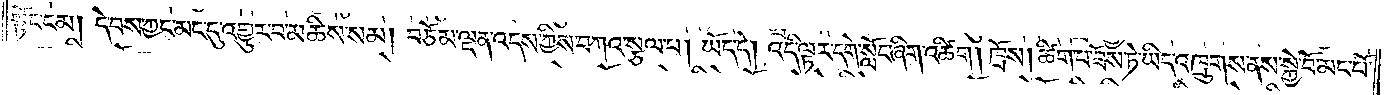སྟོང་ངམ། དེ་བས་ཀྱང་མང་དུ་འགྱུར་བ་མཆིས་སམ། བཅོམ་ལྡན་འདས་ཀྱིས་བཀའ་སྩལ་པ། ཡོད་དེ། འདི་ལྟར་དགེ་སློང་ཞིག་འཚིག །ཁྲོས། ཚིག་པ་ཟོས་ཏེ་ཡིད་འཁྲུགས་ནས་སྐྱེ་བོ་མང་པོ་
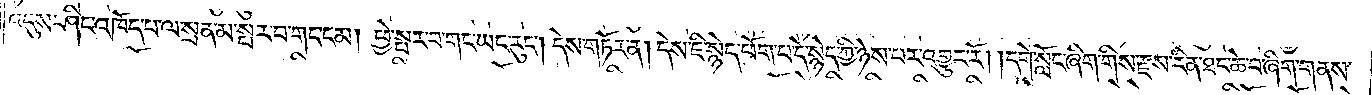འདུས་ཤིང་འཁོད་པ་ལ་སྲན་མ་སྤར་བ་གང་ངམ། ཕྱེ་སྤར་བ་གང་ཡང་རུང༌། དེས་གཏོར་ན། དེས་ཇི་སྙེད་ཕོག་པ་དེ་སྙེད་ཀྱི་ཉེས་པར་འགྱུར་རོ། །དགེ་སློང་ཞིག་གིས་རྫས་རིན་ཐང་ཆེ་བ་ཞིག་གནས་
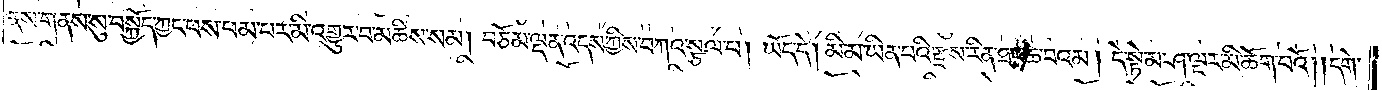ནས་གནས་སུ་བསྐྱོད་ཀྱང་ཕས་ཕམ་པར་མི་འགྱུར་བ་མཆིས་སམ། བཅོམ་ལྡན་འདས་ཀྱིས་བཀའ་སྩལ་པ། ཡོད་དེ། མི་མ་ཡིན་པའི་རྫས་རིན་ཐང་ཆེ་བའམ། དེ་སྟེ་མ་ཤ་ལྔར་མི་ཆོག་པའོ། །དགེ་
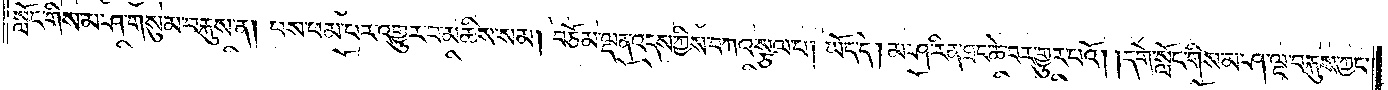སློང་གིས་མ་ཤ་གསུམ་བརྐུས་ན། ཕས་ཕམ་པར་འགྱུར་བ་མཆིས་སམ། བཅོམ་ལྡན་འདས་ཀྱིས་བཀའ་སྩལ་པ། ཡོད་དེ། མ་ཤ་རིན་ཐང་ཆེ་བར་གྱུར་པའོ། །དགེ་སློང་གིས་མ་ཤ་ལྔ་བརྐུས་ཀྱང་
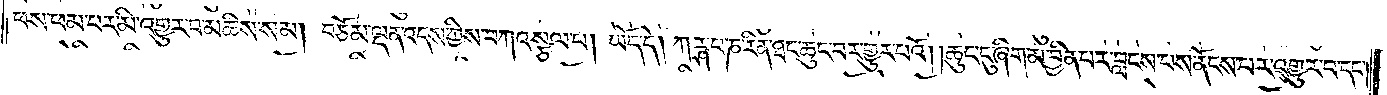ཕས་ཕམ་པར་མི་འགྱུར་བ་མཆིས་སམ། བཅོམ་ལྡན་འདས་ཀྱིས་བཀའ་སྩལ་པ། ཡོད་དེ། ཀཪྴ་པ་ཎ་རིན་ཐང་ཆུང་བར་གྱུར་པའོ། །ཆུང་ངུ་ཞིག་མ་བྱིན་པར་བླངས་པས་ནོངས་པར་འགྱུར་བ་དང༌།
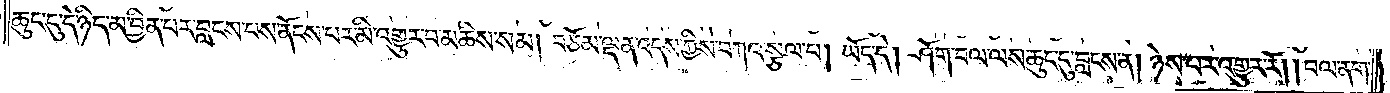ཆུང་ངུ་དེ་ཉིད་མ་བྱིན་པར་བླངས་པས་ནོངས་པར་མི་འགྱུར་བ་མཆིས་སམ། བཅོམ་ལྡན་འདས་ཀྱིས་བཀའ་སྩལ་པ། ཡོད་དེ། ཤོག་བལ་ལས་ཆུང་ངུ་བླངས་ན། ཉེས་པར་འགྱུར་རོ། །བལ་ནག་
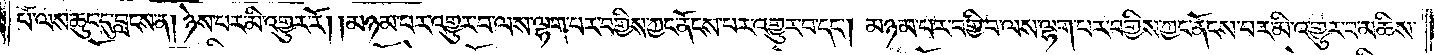པོ་ལས་ཆུང་དུ་བླངས་ན། ཉེས་པར་མི་འགྱུར་རོ། །མཉམ་པར་འགྱུར་བ་ལས་ལྷག་པར་བགྱིས་ཀྱང་ནོངས་པར་འགྱུར་བ་དང༌། མཉམ་པར་བགྱི་བ་ལས་ལྷག་པར་བགྱིས་ཀྱང་ནོངས་པར་མི་འགྱུར་བ་མཆིས་
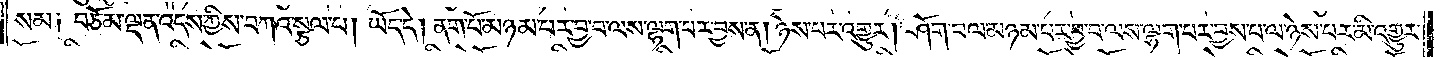སམ༑ བཅོམ་ལྡན་འདས་ཀྱིས་བཀའ་སྩལ་པ། ཡོད་དེ། ནག་པོ་མཉམ་པར་བྱ་བ་ལས་ལྷག་པར་བྱས་ན། ཉེས་པར་འགྱུར། ཤོག་བལ་མཉམ་པར་བྱ་བ་ལས་ལྷག་པར་བྱས་པ་ལ་ཉེས་པར་མི་འགྱུར་
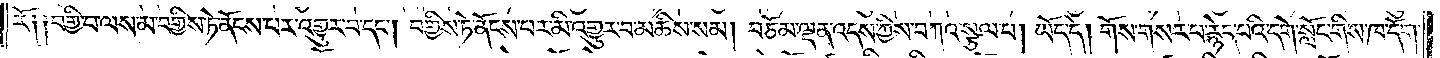རོ༑ ༑བགྱི་བ་ལས་མ་བགྱིས་ཏེ་ནོངས་པར་འགྱུར་བ་དང༌། བགྱིས་ཏེ་ནོངས་པར་མི་འགྱུར་བ་མཆིས་སམ། བཅོམ་ལྡན་འདས་ཀྱིས་བཀའ་སྩལ་པ། ཡོད་དེ། གོས་གསར་པ་རྙེད་པའི་དགེ་སློང་གིས་ཁ་དོག་
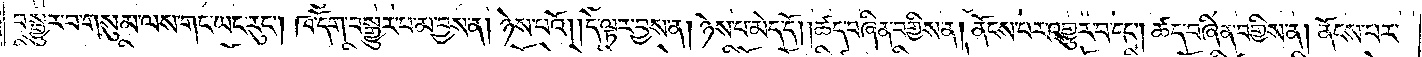བསྒྱུར་བ་གསུམ་ལས་གང་ཡང་རུང༌། ཁ་དོག་བསྒྱུར་བ་མ་བྱས་ན། ཉེས་པའོ། །དེ་ལྟར་བྱས་ན། ཉེས་པ་མེད་དོ། །ཚད་བཞིན་བགྱིས་ན། ནོངས་པར་འགྱུར་བ་དང༌། ཚད་བཞིན་བགྱིས་ན། ནོངས་པར་
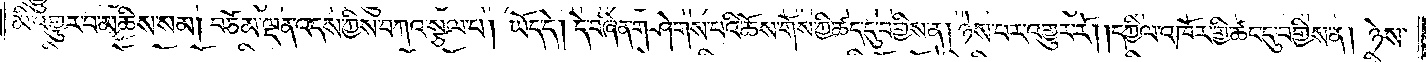མི་འགྱུར་བ་མཆིས་སམ། བཅོམ་ལྡན་འདས་ཀྱིས་བཀའ་སྩལ་པ། ཡོད་དེ། དེ་བཞིན་གཤེགས་པའི་ཆོས་གོས་ཀྱི་ཚད་དུ་བགྱིས་ན། ཉེས་པར་འགྱུར་རོ། །དཀྱིལ་འཁོར་གྱི་ཚང་དུ་བགྱིས་ན། ཉེས་
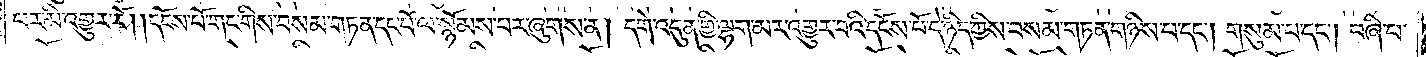པར་མི་འགྱུར་རོ། །དངོས་པོ་གང་གིས་བསམ་གཏན་དང་པོ་ལ་སྙོམས་པར་ཞུགས་ན། དགེ་འདུན་གྱི་ལྷག་མར་འགྱུར་བའི་དངོས་པོ་དེ་ཉིད་ཀྱིས་བསམ་གཏན་གཉིས་པ་དང༌། གསུམ་པ་དང༌། བཞི་པ་
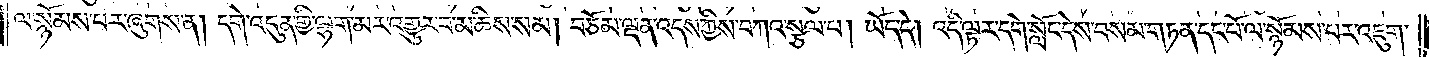ལ་སྙོམས་པར་ཞུགས་ན། དགེ་འདུན་གྱི་ལྷག་མར་འགྱུར་བ་མཆིས་སམ། བཅོམ་ལྡན་འདས་ཀྱིས་བཀའ་སྩལ་པ། ཡོད་དེ། འདི་ལྟར་དགེ་སློང་དེས་བསམ་གཏན་དང་པོ་ལ་སྙོམས་པར་འཇུག་
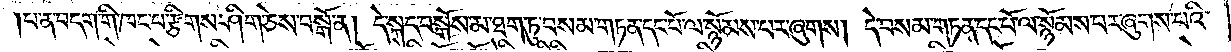པ་ན་བདག་གི་ཁང་པ་རྩིགས་ཤིག་ཅེས་བསྒོ་ན། དེ་སྐད་བསྒོས་མ་ཐག་ཏུ་བསམ་གཏན་དང་པོ་ལ་སྙོམས་པར་ཞུགས། དེ་བསམ་གཏན་དང་པོ་ལ་སྙོམས་པར་ཞུགས་པའི་
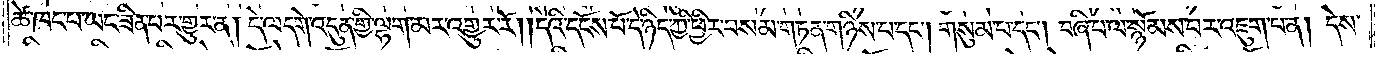ཚེ་ཁང་པ་ཡང་ཟིན་པར་གྱུར་ན། དེ་ལ་དགེ་འདུན་གྱི་ལྷག་མར་འགྱུར་རོ། །དེའི་དངོས་པོ་དེ་ཉིད་ཀྱིས་ཕྱིར་བསམ་གཏན་གཉིས་པ་དང༌། གསུམ་པ་དང༌། བཞི་པ་ལ་སྙོམས་པར་འཇུག་པ་ན། དེས་
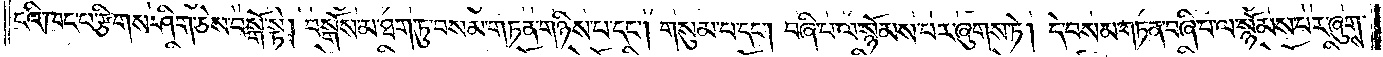ངའི་ཁང་པ་རྩིགས་ཤིག་ཅེས་བསྒོ་སྟེ། བསྒོས་མ་ཐག་ཏུ་བསམ་གཏན་གཉིས་པ་དང༌། གསུམ་པ་དང༌། བཞི་པ་ལ་སྙོམས་པར་ཞུགས་ཏེ། དེ་བསམ་གཏན་བཞི་པ་ལ་སྙོམས་པར་ཞུགས་
